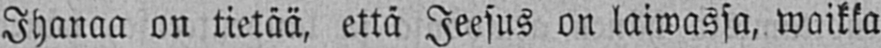Ihanaa on tietää, että Jeesus on laiwassa, waikka
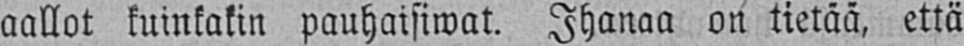aallot kuinkakin pauhaisiwat. Ihanaa on tietää, että
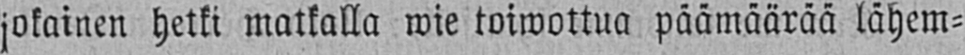jokainen hetki matkalla wie toiwottua päämäärää lähem-
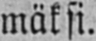mäksi.
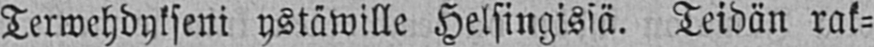Terwehdykseni ystäwille Helsingissä. Teidän rak-
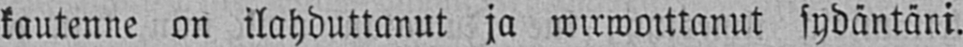kautenne on ilahduttanut ja wirwoittanut sydäntäni.
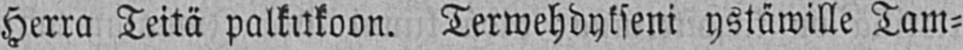Herra Teitä palkitkoon. Terwehdykseni ystäwille Tam-
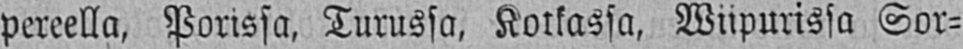pereella, Porissa, Turussa, Kotkassa, Wiipurissa Sor-
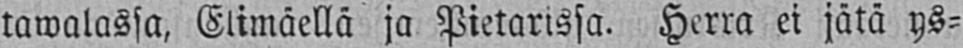tawalassa, Elimäellä ja Pietarissa. Herra ei jätä ys-
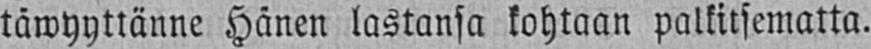täwyyttänne Hänen lastansa kohtaan palkitsematta.
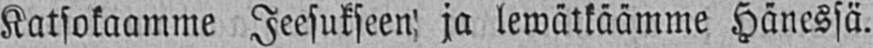Katsokaamme Jeesukseen! ja lewätkäämme Hänessä.
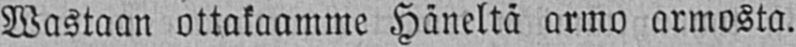Wastaan ottakaamme Häneltä armo armosta.
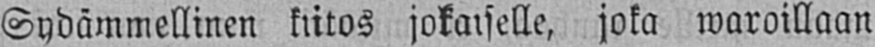Sydämmellinen kiitos jokaiselle, joka waroillaan
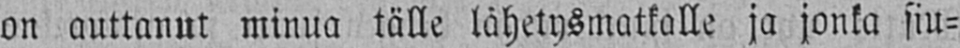on auttanut minua tälle lähetysmatkalle ja jonka siu-
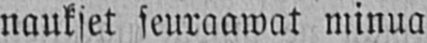naukset seuraawat minua
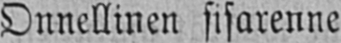Onnellinen sisarenne
